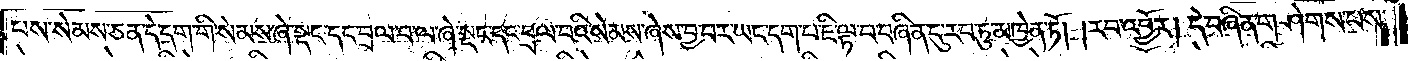པས་སེམས་ཅན་དེ་དག་གི་སེམས་ཞེ་སྡང་དང་བྲལ་བ་ལ་ཞེ་སྡང་དང་བྲལ་བའི་སེམས་ཞེས་བྱ་བར་ཡང་དག་པ་ཇི་ལྟ་བ་བཞིན་དུ་རབ་ཏུ་མཁྱེན་ཏོ། །རབ་འབྱོར། དེ་བཞིན་གཤེགས་པས་
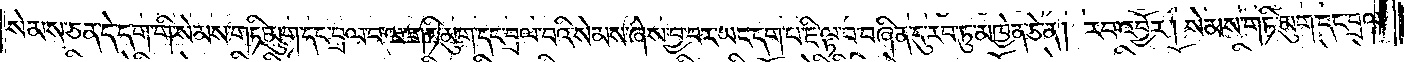སེམས་ཅན་དེ་དག་གི་སེམས་གཏི་མུག་དང་བྲལ་བ་ལ་གཏི་མུག་དང་བྲལ་བའི་སེམས་ཞེས་བྱ་བར་ཡང་དག་པ་ཇི་ལྟ་བ་བཞིན་དུ་རབ་ཏུ་མཁྱེན་ཅེ་ན། རབ་འབྱོར། སེམས་གཏི་མུག་དང་བྲལ་
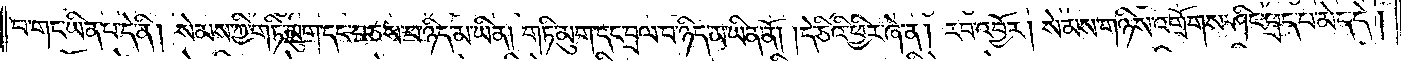བ་གང་ཡིན་པ་དེ་ནི། སེམས་ཀྱི་གཏི་མུག་དང་བཅས་པ་ཉིད་མ་ཡིན། གཏི་མུག་དང་བྲལ་བ་ཉིད་མ་ཡིན་ནོ། །དེ་ཅིའི་ཕྱིར་ཞེ་ན། རབ་འབྱོར། སེམས་གཉིས་འགྲོགས་ཤིང་ཕྲད་པ་མེད་དེ།
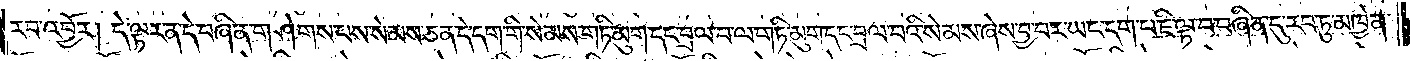རབ་འབྱོར། དེ་ལྟར་ན་དེ་བཞིན་གཤེགས་པས་སེམས་ཅན་དེ་དག་གི་སེམས་གཏི་མུག་དང་བྲལ་བ་ལ་གཏི་མུག་དང་བྲལ་བའི་སེམས་ཞེས་བྱ་བར་ཡང་དག་པ་ཇི་ལྟ་བ་བཞིན་དུ་རབ་ཏུ་མཁྱེན་
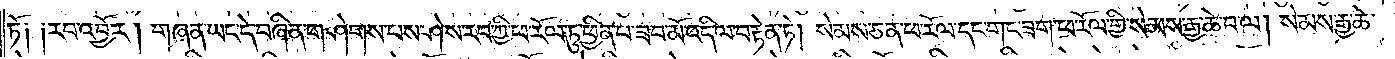ཏོ༑ ༑རབ་འབྱོར། གཞན་ཡང་དེ་བཞིན་གཤེགས་པས་ཤེས་རབ་ཀྱི་ཕ་རོལ་ཏུ་ཕྱིན་པ་ཟབ་མོ་འདི་ལ་བརྟེན་ཏེ། སེམས་ཅན་ཕ་རོལ་དང་གང་ཟག་ཕ་རོལ་གྱི་སེམས་རྒྱ་ཆེ་བ་ལ། སེམས་རྒྱ་ཆེ་
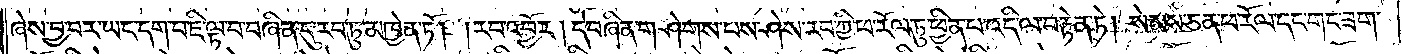ཞེས་བྱ་བར་ཡང་དག་པ་ཇི་ལྟ་བ་བཞིན་དུ་རབ་ཏུ་མཁྱེན་ཏོ། །རབ་འབྱོར། དེ་བཞིན་གཤེགས་པས་ཤེས་རབ་ཀྱི་ཕ་རོལ་ཏུ་ཕྱིན་པ་འདི་ལ་བརྟེན་ཏེ། སེམས་ཅན་ཕ་རོལ་དང་གང་ཟག་
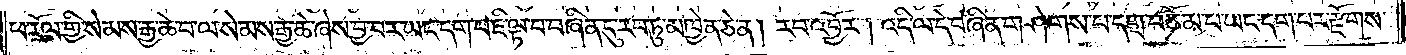ཕ་རོལ་གྱི་སེམས་རྒྱ་ཆེ་བ་ལ་སེམས་རྒྱ་ཆེ་ཞེས་བྱ་བར་ཡང་དག་པ་ཇི་ལྟ་བ་བཞིན་དུ་རབ་ཏུ་མཁྱེན་ཅེ་ན། རབ་འབྱོར། འདི་ལ་དེ་བཞིན་གཤེགས་པ་དགྲ་བཅོམ་པ་ཡང་དག་པར་རྫོགས་
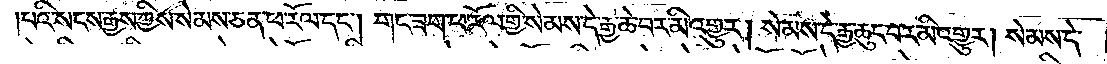པའི་སངས་རྒྱས་ཀྱིས་སེམས་ཅན་ཕ་རོལ་དང༌། གང་ཟག་ཕ་རོལ་གྱི་སེམས་དེ་རྒྱ་ཆེ་བར་མི་འགྱུར། སེམས་དེ་རྒྱ་ཆུང་བར་མི་འགྱུར། སེམས་དེ་
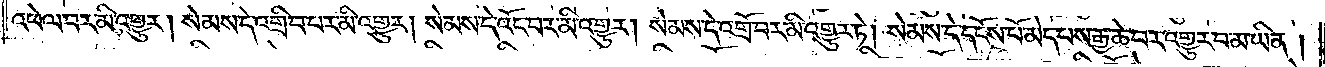འཕེལ་བར་མི་འགྱུར། སེམས་དེ་འགྲིབ་པར་མི་འགྱུར། སེམས་དེ་འོང་བར་མི་འགྱུར། སེམས་དེ་འགྲོ་བར་མི་འགྱུར་ཏེ། སེམས་དེ་དངོས་པོ་མེད་པས་རྒྱ་ཆེ་བར་འགྱུར་བ་མ་ཡིན།
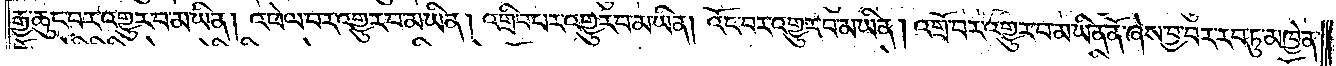རྒྱ་ཆུང་བར་འགྱུར་བ་མ་ཡིན། འཕེལ་བར་འགྱུར་བ་མ་ཡིན། འགྲིབ་པར་འགྱུར་བ་མ་ཡིན། འོང་བར་འགྱུར་བ་མ་ཡིན། འགྲོ་བར་འགྱུར་བ་མ་ཡིན་ནོ་ཞེས་བྱ་བར་རབ་ཏུ་མཁྱེན་
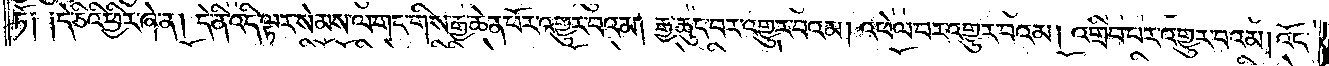ཏོ༑ ༑དེ་ཅིའི་ཕྱིར་ཞེ་ན། དེ་ནི་འདི་ལྟར་སེམས་ལ་གང་གིས་རྒྱ་ཆེན་པོར་འགྱུར་བའམ། རྒྱ་ཆུང་བར་འགྱུར་བའམ། འཕེལ་བར་འགྱུར་བའམ། འགྲིབ་པར་འགྱུར་བའམ། འོང་
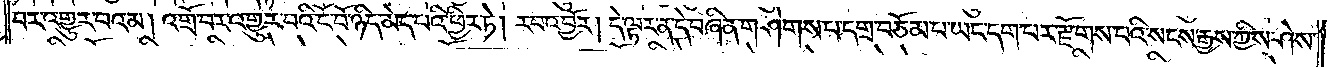བར་འགྱུར་བའམ། འགྲོ་བར་འགྱུར་བའི་ངོ་བོ་ཉིད་མེད་པའི་ཕྱིར་ཏེ། རབ་འབྱོར། དེ་ལྟར་ན་དེ་བཞིན་གཤེགས་པ་དགྲ་བཅོམ་པ་ཡང་དག་པར་རྫོགས་པའི་སངས་རྒྱས་ཀྱིས་ཤེས་
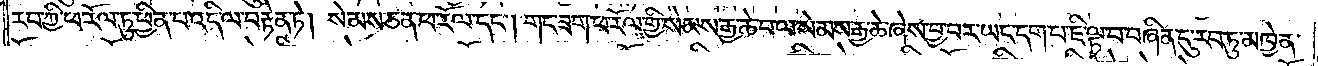རབ་ཀྱི་ཕ་རོལ་ཏུ་ཕྱིན་པ་འདི་ལ་བརྟེན་ཏེ། སེམས་ཅན་ཕ་རོལ་དང༌། གང་ཟག་ཕ་རོལ་གྱི་སེམས་རྒྱ་ཆེ་བ་ལ་སེམས་རྒྱ་ཆེ་ཞེས་བྱ་བར་ཡང་དག་པ་ཇི་ལྟ་བ་བཞིན་དུ་རབ་ཏུ་མཁྱེན་
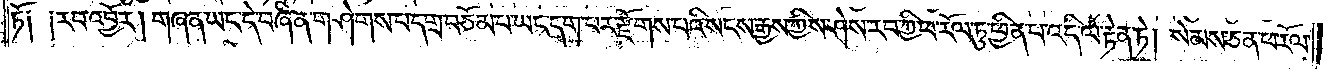ཏོ༑ ༑རབ་འབྱོར། གཞན་ཡང་དེ་བཞིན་གཤེགས་པ་དགྲ་བཅོམ་པ་ཡང་དག་པར་རྫོགས་པའི་སངས་རྒྱས་ཀྱིས་ཤེས་རབ་ཀྱི་ཕ་རོལ་ཏུ་ཕྱིན་པ་འདི་ལ་བརྟེན་ཏེ། སེམས་ཅན་ཕ་རོལ་
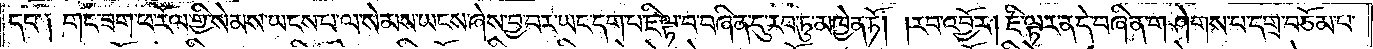དང༌། གང་ཟག་ཕ་རོལ་གྱི་སེམས་ཡངས་པ་ལ་སེམས་ཡངས་ཞེས་བྱ་བར་ཡང་དག་པ་ཇི་ལྟ་བ་བཞིན་དུ་རབ་ཏུ་མཁྱེན་ཏོ། །རབ་འབྱོར། ཇི་ལྟར་ན་དེ་བཞིན་གཤེགས་པ་དགྲ་བཅོམ་པ་
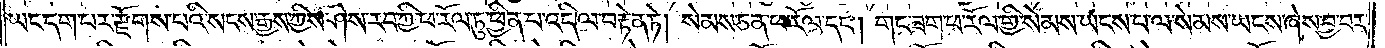ཡང་དག་པར་རྫོགས་པའི་སངས་རྒྱས་ཀྱིས་ཤེས་རབ་ཀྱི་ཕ་རོལ་ཏུ་ཕྱིན་པ་འདི་ལ་བརྟེན་ཏེ། སེམས་ཅན་ཕ་རོལ་དང༌། གང་ཟག་ཕ་རོལ་གྱི་སེམས་ཡངས་པ་ལ་སེམས་ཡངས་ཞེས་བྱ་བར་
